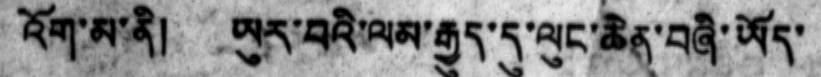འོག་མ་ནི། ཡུར་བའི་ལམ་རྒྱུད་དུ་ལུང་ཆེན་བཞི་ཡོད་
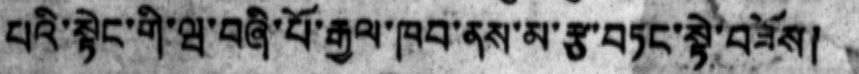པའི་སྟེང་གི་ཝ་བཞི་པོ་རྒྱལ་ཁབ་ནས་མ་རྩ་བཏང་སྟེ་བཟོས།
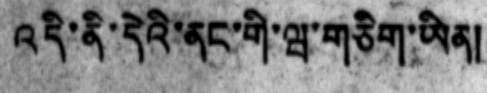འདི་ནི་དེའི་ནང་གི་ཝ་གཅིག་ཡིན།
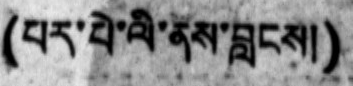(པར་པེ་ལི་ནས་བླངས།)
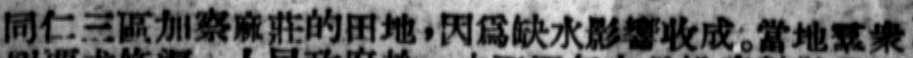同仁三區加察麻莊的田地，因爲缺水影響收成。當地羣衆
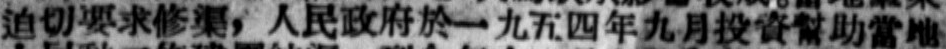迫切要求修渠，人民政府於一九五四年九月投資幫助當地
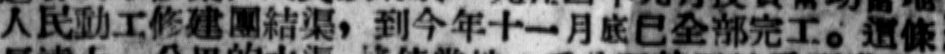人民動工修建團結渠，到今年十一月底已全部完工。這條
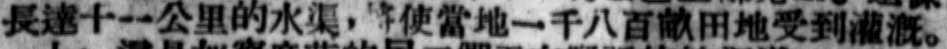長達十一公里的水渠，將使當地一千八百畝田地受到灌漑。
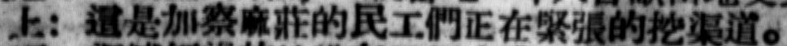上：這是加察麻莊的民工們正在緊張的挖渠道。
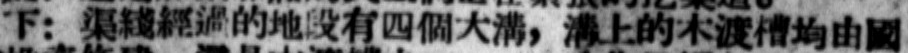下：渠綫經過的地段有四個大溝，溝上的木渡槽均由國
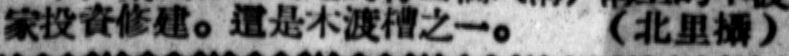家投資修建。這是木渡槽之一。 （北里攝）
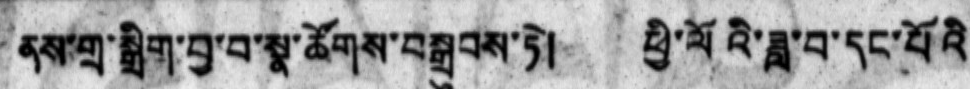ནས་གྲ་སྒྲིག་བྱ་བ་སྣ་ཚོགས་བསྒྲུབས་ཏེ། ཕྱི་ལོའི་ཟླ་བ་དང་པོའི་
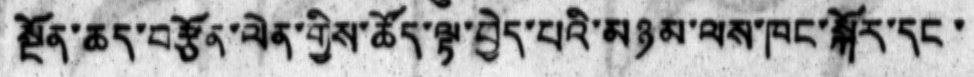སྔོན་ཆད་བརྩོན་ལེན་གྱིས་ཚོད་ལྟ་བྱེད་པའི་མཉམ་ལས་ཁང་སྐོར་དང་
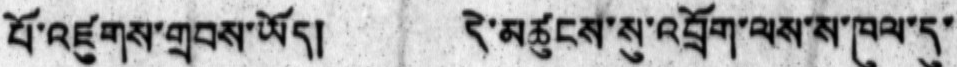པོ་འཛུགས་གྲབས་ཡོད།  དེ་མཚུངས་སུ་འབྲོག་ལས་ས་ཁུལ་དུ་
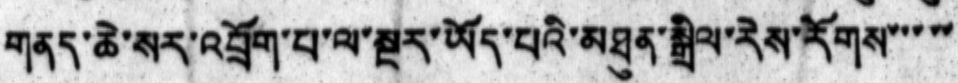གནད་ཆེ་སར་འབྲོག་པ་ལ་སྔར་ཡོད་པའི་མཐུན་སྒྲིལ་རེས་རོགས་་་་་
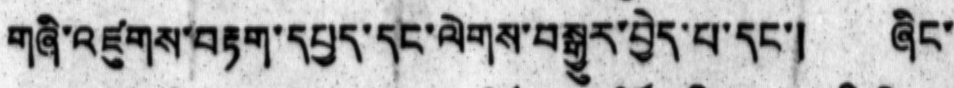གཞི་འཛུགས་བརྟག་དཔྱད་དང་ལེགས་བསྒྱུར་བྱེད་པ་དང་། ཞིང་
